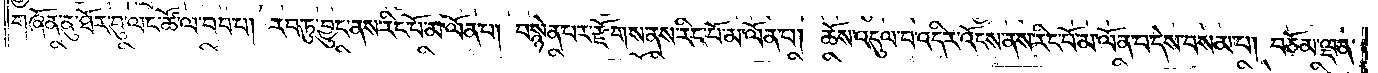གཞོན་ནུ་ཐོར་བུ་ལང་ཚོལ་བབ་པ། རབ་ཏུ་བྱུང་ནས་རིང་པོ་མ་ལོན་པ། བསྙེན་པར་རྫོགས་ནས་རིང་པོ་མ་ལོན་པ། ཆོས་འདུལ་བ་འདིར་འོངས་ནས་རིང་པོ་མ་ལོན་པ་དེས་བསམ་པ། བཅོམ་ལྡན་
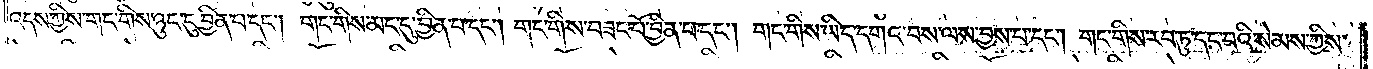འདས་ཀྱིས་གང་གིས་ཉུང་དུ་བྱིན་པ་དང༌། གང་གིས་མང་དུ་བྱིན་པ་དང༌། གང་གིས་བཟང་པོ་བྱིན་པ་དང༌། གང་གིས་ཡིད་དགའ་བས་ལས་བྱས་པ་དང༌། གང་གིས་རབ་ཏུ་དང་བའི་སེམས་ཀྱིས་
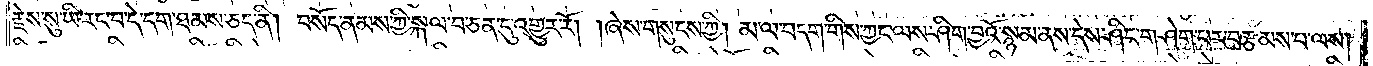རྗེས་སུ་ཡི་རང་བ་དེ་དག་ཐམས་ཅད་ནི། བསོད་ནམས་ཀྱི་སྐལ་བ་ཅན་དུ་འགྱུར་རོ། །ཞེས་གསུངས་ཀྱི། མ་ལ་བདག་གིས་ཀྱང་ལས་ཤིག་བྱའོ་སྙམ་ནས་དེས་ཤིང་གཤེག་པར་བརྩམས་པ་ལས།
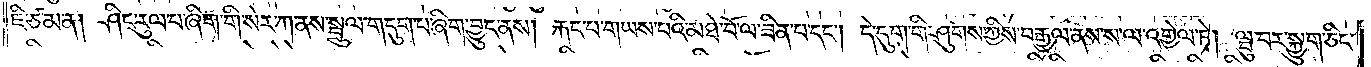ཇི་ཙམ་ན། ཤིང་རུལ་པ་ཞིག་གི་སེར་ཀ་ནས་སྦྲུལ་གདུག་པ་ཞིག་བྱུང་ནས། རྐང་པ་གཡས་པའི་མཐེ་བོ་ལ་ཟིན་པ་དང༌། དེ་དུག་གི་ཤུགས་ཀྱིས་བརྒྱལ་ནས་ས་ལ་འགྱེལ་ཏེ། ལྦུ་བར་སྐྱུག་ཅིང་
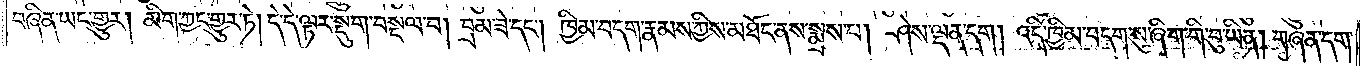བཞིན་ཡང་གྱུར། མིག་ཀྱང་གྱུར་ཏེ། དེ་དེ་ལྟར་སྡུག་བསྔལ་བ། བྲམ་ཟེ་དང༌། ཁྱིམ་བདག་རྣམས་ཀྱིས་མཐོང་ནས་སྨྲས་པ། ཤེས་ལྡན་དག། འདི་ཁྱིམ་བདག་སུ་ཞིག་གི་བུ་ཡིན། གཞན་དག་
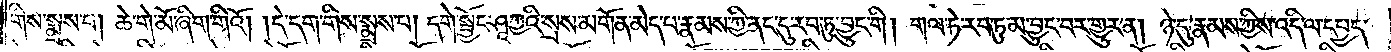གིས་སྨྲས་པ། ཆེ་གེ་མོ་ཞིག་གིའོ། །དེ་དག་གིས་སྨྲས་པ། དགེ་སྦྱོང་ཤཱཀྱའི་སྲས་མགོན་མེད་པ་རྣམས་ཀྱི་ནང་དུ་རབ་ཏུ་བྱུང་གི། གལ་ཏེ་རབ་ཏུ་མ་བྱུང་བར་གྱུར་ན། ཉེ་དུ་རྣམས་ཀྱིས་འདི་ལ་དཔྱད་
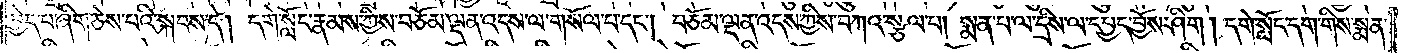བྱེད་པ་ཞིག་ཅེས་པའི་སྐབས་དེ། དགེ་སློང་རྣམས་ཀྱིས་བཅོམ་ལྡན་འདས་ལ་གསོལ་པ་དང༌། བཅོམ་ལྡན་འདས་ཀྱིས་བཀའ་སྩལ་པ། སྨན་པ་ལ་དྲིས་ལ་དཔྱད་བྱོས་ཤིག། དགེ་སློང་དག་གིས་སྨན་
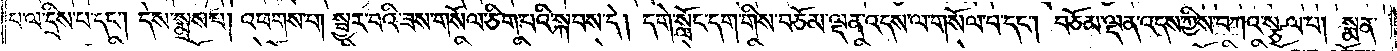པ་ལ་དྲིས་པ་དང༌། དེས་སྨྲས་པ། འཕགས་པ། སྦྱར་བའི་ཟས་གསོལ་ཅིག་པའི་སྐབས་དེ། དགེ་སློང་དག་གིས་བཅོམ་ལྡན་འདས་ལ་གསོལ་པ་དང༌། བཅོམ་ལྡན་འདས་ཀྱིས་བཀའ་སྩལ་པ། སྨན་
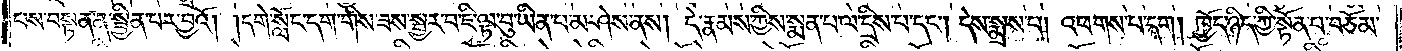པས་བསྟན་ན་སྦྱིན་པར་བྱའོ། །དགེ་སློང་དག་གིས་ཟས་སྦྱར་བ་ཇི་ལྟ་བུ་ཡིན་པ་མ་ཤེས་ནས། དེ་རྣམས་ཀྱིས་སྨན་པ་ལ་དྲིས་པ་དང༌། དེས་སྨྲས་པ། འཕགས་པ་དག། ཁྱོད་ཉིད་ཀྱི་སྟོན་པ་བཅོམ་
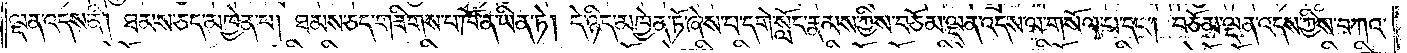ལྡན་འདས་ནི། ཐམས་ཅད་མཁྱེན་པ། ཐམས་ཅད་གཟིགས་པ་ཁོ་ན་ཡིན་ཏེ། དེ་ཉིད་མཁྱེན་ཏོ་ཞེས་པ་དགེ་སློང་རྣམས་ཀྱིས་བཅོམ་ལྡན་འདས་ལ་གསོལ་པ་དང༌། བཅོམ་ལྡན་འདས་ཀྱིས་བཀའ་
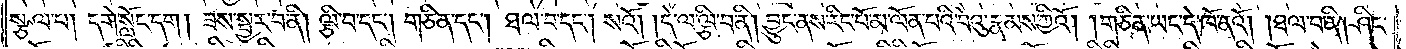སྩལ་པ། དགེ་སློང་དག། ཟས་སྦྱར་བ་ནི། ལྕི་བ་དང༌། གཅིན་དང༌། ཐལ་བ་དང༌། སའོ། །དེ་ལ་ལྕི་བ་ནི། བྱུང་ནས་རིང་པོ་མ་ལོན་པའི་བེའུ་རྣམས་ཀྱིའོ། །གཅིན་ཡང་དེ་ཁོ་ནའོ། །ཐལ་བ་ནི། ཤིང་
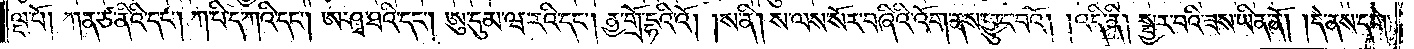ལྔ་པོ། ཀན་ཙ་ནིའི་དང༌། ཀ་པི་ད་ཀའི་དང༌། ཨ་ཤྭ་ཐའི་དང༌། ཨུ་དུམ་ཝ་རའི་དང༌། ནྱ་གྲོ་དྷའི་འོ། །ས་ནི། ས་ལས་སོར་བཞིའི་འོག་ནས་ཕྱུང་བའོ། །འདི་ནི། སྦྱར་བའི་ཟས་ཡིན་ནོ། །དེ་ནས་དགེ་
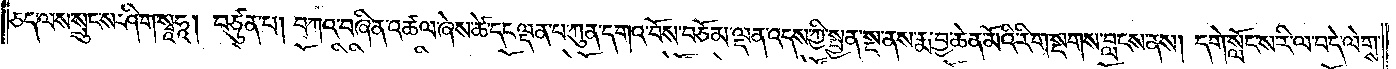ཅད་ལས་སྲུངས་ཤིག་སྭཱཧཱ། བཙུན་པ། བཀའ་བཞིན་འཚལ་ཞེས་ཚེ་དང་ལྡན་པ་ཀུན་དགའ་བོས་བཅོམ་ལྡན་འདས་ཀྱི་སྤྱན་སྔ་ནས་རྨ་བྱ་ཆེན་མོའི་རིག་སྔགས་བླངས་ནས། དགེ་སློང་ས་རི་ལ་བདེ་ལེགས་
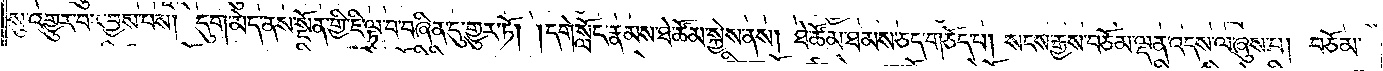སུ་འགྱུར་བར་བྱས་པས། དུག་མེད་ནས་སྔོན་གྱི་ཇི་ལྟ་བ་བཞིན་དུ་གྱུར་ཏོ། །དགེ་སློང་རྣམས་ཐེ་ཚོམ་སྐྱེས་ནས། ཐེ་ཚོམ་ཐམས་ཅད་གཅོད་པ། སངས་རྒྱས་བཅོམ་ལྡན་འདས་ལ་ཞུས་པ། བཅོམ་
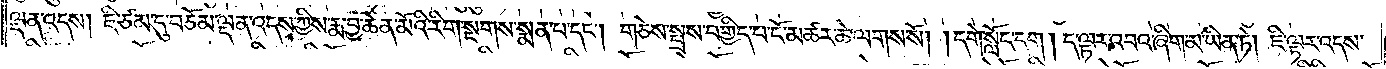ལྡན་འདས། ཇི་ཙམ་དུ་བཅོམ་ལྡན་འདས་ཀྱིས་རྨ་བྱ་ཆེན་མོའི་རིག་སྔགས་སྨན་པ་དང༌། གཅེས་སྤྲས་བགྱིད་པ་ངོ་མཚར་ཆེ་ལགས་སོ། །དགེ་སློང་དག །ད་ལྟར་འབའ་ཞིག་མ་ཡིན་ཏེ། ཇི་ལྟར་འདས་
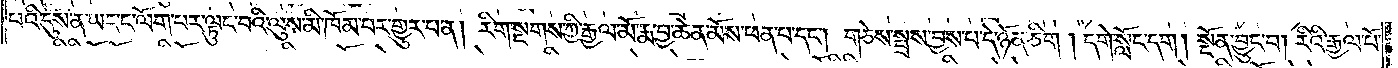པའི་དུས་ན་ཡང་ང་ལོག་པར་ལྟུང་བའི་ལུས་མི་ཁོམ་པར་གྱུར་པ་ན། རིག་སྔགས་ཀྱི་རྒྱལ་མོ་རྨ་བྱ་ཆེན་མོས་ཕན་པ་དང༌། གཅེས་སྤྲས་བྱས་པ་དེ་ཉོན་ཅིག །དགེ་སློང་དག །སྔོན་བྱུང་བ། རིའི་རྒྱལ་པོ་
